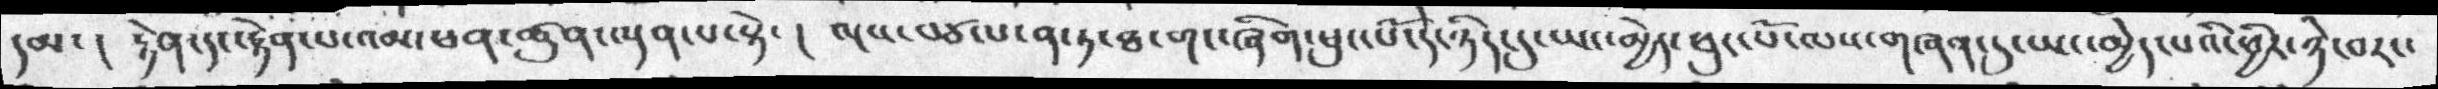དམ་། རྟེན་དང་རྟེན་པ་འམ་ཕན་ཚུན་ལྡན་པ་སྟེ་། ལྔས་བཙལ་ན་ཏ་ཐ་གང་ཞིག་ཕུང་པོ་དེ་ཉིད་དུ་ཡང་མྱེད་ཕུང་པོ་ལས་གཞན་དུ་ཡང་མྱེད་པའི་ཕྱིར་ཉེ་བར་
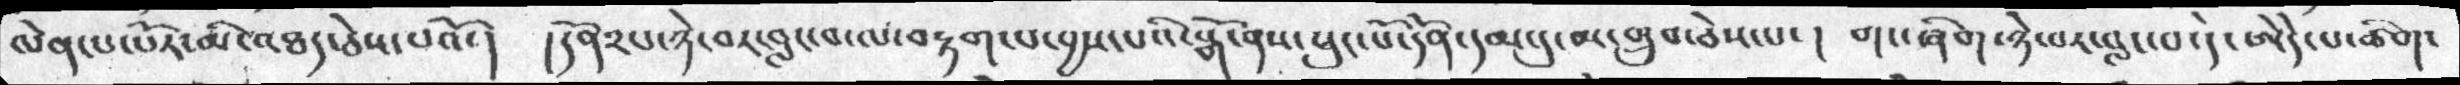ལེན་པ་པོར་མི་འཐད་ཅེས་པའོ་།  །དོན༢པ་ཉེ་བར་བླང་བ་ལ་བརྟག་པ་བྱས་པའི་སྒོ་ནས་ཕུང་པོ་དོན་དམ་དུ་མ་གྲུབ་ཅེས་པ་།  གང་ཞིག་ཉེ་བར་བླང་བ་དེ་ཨེདེ་པ་ཚིག་
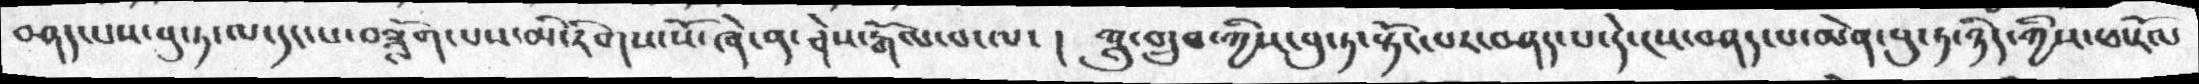བཤད་པས་བུ་ཏ་ལ་ད་པ་བཟློག་པས་མི་རིགས་སོ་ཞེ་ན་ཅེས་རྒོལ་བ་ལ་། ཀླུ་གྲུབ་ཀྱིས་བུ་ཏ་སྟོང་པར་བཤད་པ་དེ་ངས་བཤད་པ་མེན་བུ་ཏ་ཉིད་ཀྱིས་ཕ་རོལ་
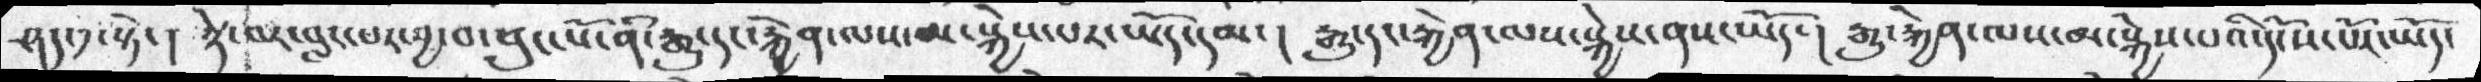ཤད་༡་སྟེ་། ཉེ་བར་བླང་པར་བྱ་བ་ཕུང་པོ་ནི་རྒྱུ་དང་རྐྱེན་ལས་མ་སྐྱེས་པར་ཡོད་མད་། རྒྱུ་དང་རྐྱེན་ལས་སྐྱེས་ནས་ཡོད་།  རྒྱུ་རྐྱེན་ལས་མ་སྐྱེས་པའི་དངོས་པོར་ཡོད་
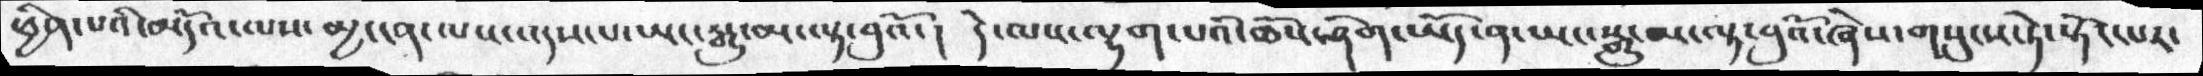ཕྱིན་པའི་མདོའ་ལས་མྱ་ངན་ལས་འདས་པ་ཡང་སྒྱུ་མ་ལྟ་བུའོ་།  དེ་ལས་ལྷག་པའི་ཆོས་ཤིག་ཡོད་ན་ཡངསྒྱུ་མ་ལྟ་བུའོ་ཞེས་གསུངས་ཏེ་སྟོང་པར་
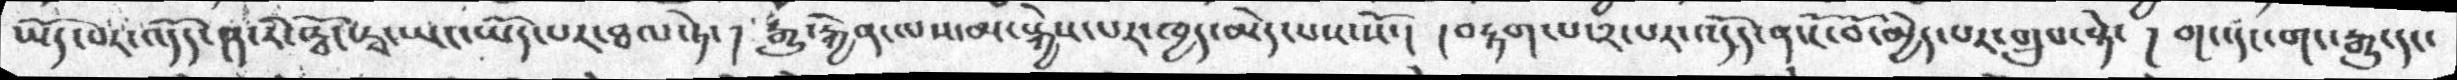ཡོད་པར་འདོད་ན་རི་ཝོང་རྭ་ཡང་ཡོད་པར་ཐལ་ཏེ་། རྒྱུ་རྐྱེན་ལས་མ་སྐྱེས་པར་ཁྱད་མེད་པས་སོ་། །བརྟག་པ་༢་པར་འདོད་ན་ངོ་བོ་མྱེད་པར་གྲུབ་སྟེ་། གང་དང་གང་རྒྱུ་དང་
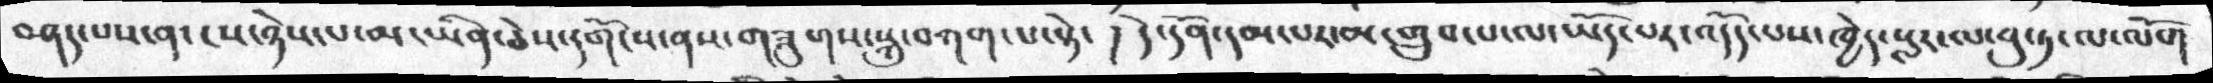བཤད་པས་ན་ངས་ཉེས་པ་མ་ཡིན་ཅེས་དགོངས་ནས་གཟུགས་སྐུ་བཀག་པ་སྟེ་། དེ་དོན་དམ་པར་མ་གྲུབ་པ་ལ་ཡོད་པར་འདོད་པས་ཁྱེད་སླར་ལ་བུ་ཏ་ལ་ལོག
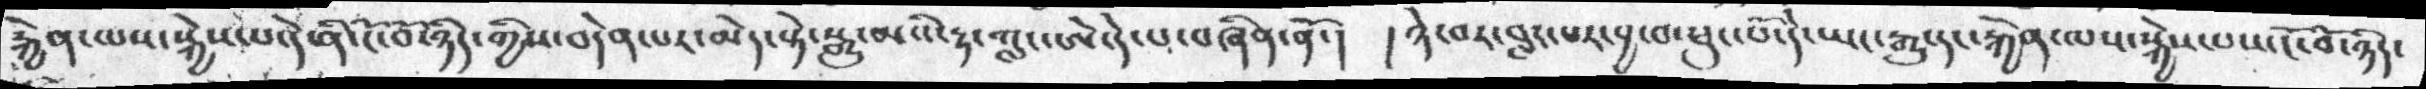རྐྱེན་ལས་སྐྱེས་པ་དེ་ནི་ངོ་བོ་ཉིད་ཀྱིས་བདེན་པར་མེད་སྟེ་སྒྱུ་མའི་རྟ་གླང་ཨེ་དེ་པ་བཞིན་ནོ་།  ཉེ་བར་བླང་པར་བྱ་བ་ཕུང་པོ་དེ་ཡང་རྒྱུ་དང་རྐྱེན་ལས་སྐྱེས་པས་ངོ་བོ་ཉིད་
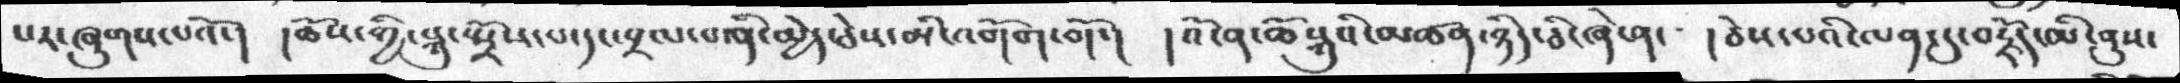པར་ཞུགས་པའོ་།  །ཆོས་ཀྱི་སྐུ་སྤྲོས་པ་དང་བྲལ་བ་ནི་མྱེད་ཅེས་འགོག་གོ་།  །འོ་ན་ཆོསྐུ་མཚན་ཉིད་ཅི་ཞེ་ན་  །ཅེས་པའི་ལན་དུ་བརྗོད་མི་ནུས་
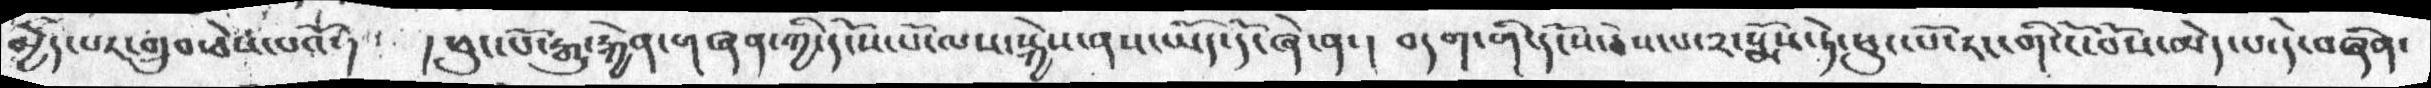མྱེད་པར་གྲུབ་ཅེས་པའོ་།  །ཕུང་པོ་རྒྱུ་རྐྱེན་གཞན་ཀྱི་དངོས་པོ་ལས་སྐྱེས་ནས་ཡོད་དོ་ཞེ་ན་། བདག་གི་དངོས་ཅེས་པ་༢་སྨོས་ཏེ་ཕུང་པོ་རང་གི་ངོ་བོས་མེད་པ་དེ་བཞིན་
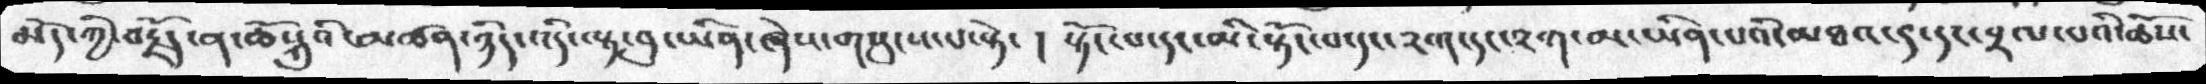མོད་ཀྱི་བརྗོད་ན་ཆོསྐུའི་མཚན་ཉིད་འདི་ལྟ་བུ་ཡིན་ཞེས་གསུངས་པ་སྟེ་། སྟོང་པ་དང་མི་སྟོང་པ་དང་༢ག་དང་༢ག་མ་ཡིན་པའི་མཐའ་༩་དང་བྲལ་བའི་ཆོས་
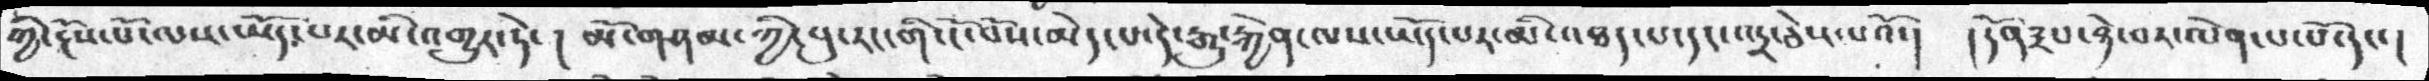ཀྱི་རྔོས་པོ་ལས་ཡོད་པར་མི་འགྱུར་ཏེ་།  མོ་གཤམ་ཀྱི་བུ་རང་གི་ངོ་བོས་མེད་པ་དེ་རྒྱུ་རྐྱེན་ལས་ཡོད་པར་མི་འཐད་པ་དང་འདྲ་ཅེས་པའོ་།  །དོན༣པ་ཉེ་བར་ལེན་པ་པོ་དང་།
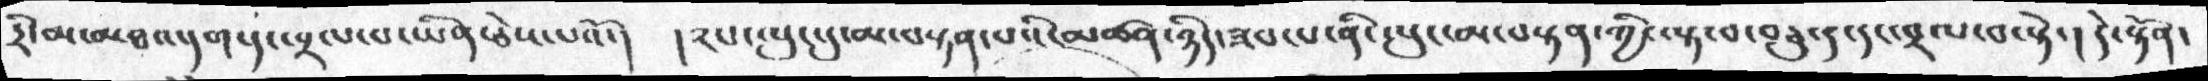དྲི་མ་མཐའ་དག་དང་བྲལ་བ་ཡིན་ཅེས་པའོ་།  །༢པ་ལུང་དུ་མ་བསྟན་པའི་མཚན་ཉིད་ཟབ་པ་ནི་ལུང་མ་བསྟན་ཀྱི་ལྟ་བ་བཅུ་༩་དང་བྲལ་བ་སྟེ་། དེ་སྟོན་
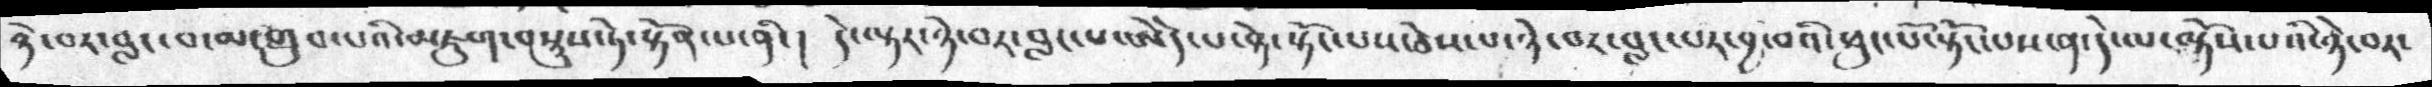ཉེ་བར་བླང་བ་མ་གྲུབ་པའི་མཇུག་བསྡུས་ཏེ་སྟོན་པ་ནི་།  དེ་ལྟར་ཉེ་བར་བླང་པ་ཨེདེ་པ་སྟེ་སྟོང་པས་ཅེས་པ་ཉེ་བར་བླང་པར་བྱ་བའི་ཕུང་པོ་སྟོང་པས་ན་དེ་ལ་ལྟོས་པའི་ཉེ་བར་
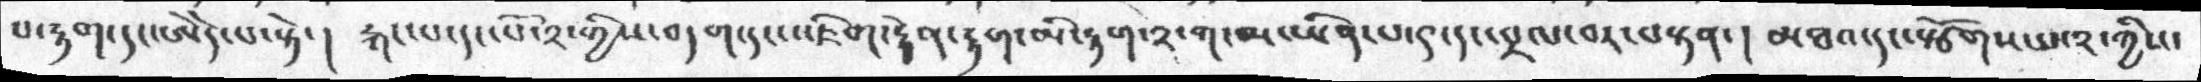པ་རྟག་དང་ཨེདེ་པ་སྟེ་། རྐང་པ་དང་པོ་༢་གྱིས་བདག་དང་འཇིག་རྟེན་རྟག་མི་རྟག་༢་ག་མ་ཡིན་པ་༩་དང་བྲལ་བར་བསྟན་། མཐའ་དང་སྩོགས་པ་༢་ཀྱིས་
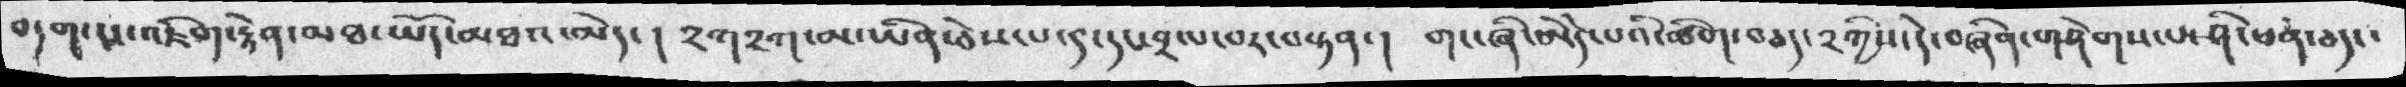བདག་པ་འཇིག་རྟེན་མཐ་ཡོད་མཐའ་མེད་། ༢ག༢ཀ་མ་ཡིན་ཅེས་པ་༩་དང་བྲལ་བར་བསྟན་། གང་ཞིག་ཨེདེ་པའི་ཚིག་བཅད་༢ཀྱིས་དེ་བཞིན་གཤེགས་པ་ཤི་ཕན་ཅད་
